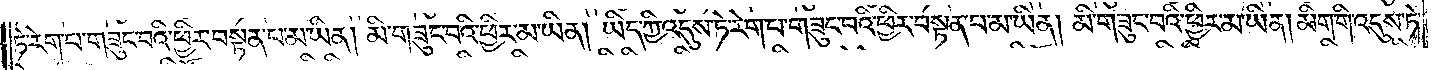ཏེ་རེག་པ་གཟུང་བའི་ཕྱིར་བསྟན་པ་མ་ཡིན། མི་གཟུང་བའི་ཕྱིར་མ་ཡིན། ཡིད་ཀྱི་འདུས་ཏེ་རེག་པ་གཟུང་བའི་ཕྱིར་བསྟན་པ་མ་ཡིན། མི་གཟུང་བའི་ཕྱིར་མ་ཡིན། མིག་གི་འདུས་ཏེ་
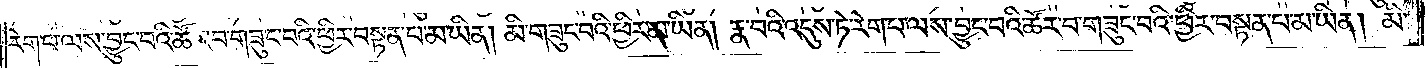རེག་པ་ལས་བྱུང་བའི་ཚོར་བ་གཟུང་བའི་ཕྱིར་བསྟན་པ་མ་ཡིན། མི་གཟུང་བའི་ཕྱིར་མ་ཡིན། རྣ་བའི་འདུས་ཏེ་རེག་པ་ལས་བྱུང་བའི་ཚོར་བ་གཟུང་བའི་ཕྱིར་བསྟན་པ་མ་ཡིན། མི་
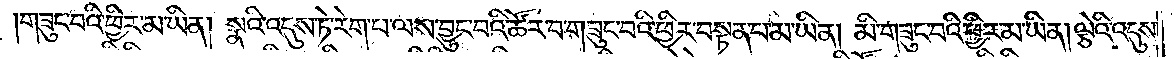གཟུང་བའི་ཕྱིར་མ་ཡིན། སྣའི་འདུས་ཏེ་རེག་པ་ལས་བྱུང་བའི་ཚོར་བ་གཟུང་བའི་ཕྱིར་བསྟན་པ་མ་ཡིན། མི་གཟུང་བའི་ཕྱིར་མ་ཡིན། ལྕེའི་འདུས་
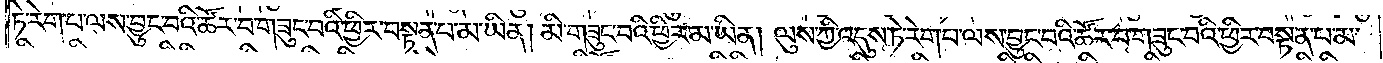ཏེ་རེག་པ་ལས་བྱུང་བའི་ཚོར་བ་གཟུང་བའི་ཕྱིར་བསྟན་པ་མ་ཡིན། མི་གཟུང་བའི་ཕྱིར་མ་ཡིན། ལུས་ཀྱི་འདུས་ཏེ་རེག་པ་ལས་བྱུང་བའི་ཚོར་བ་གཟུང་བའི་ཕྱིར་བསྟན་པ་མ་
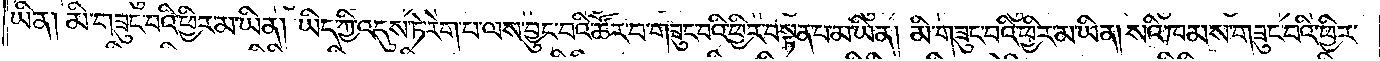ཡིན། མི་གཟུང་བའི་ཕྱིར་མ་ཡིན། ཡིད་ཀྱི་འདུས་ཏེ་རེག་པ་ལས་བྱུང་བའི་ཚོར་བ་གཟུང་བའི་ཕྱིར་བསྟན་པ་མ་ཡིན། མི་གཟུང་བའི་ཕྱིར་མ་ཡིན། སའི་ཁམས་གཟུང་བའི་ཕྱིར་
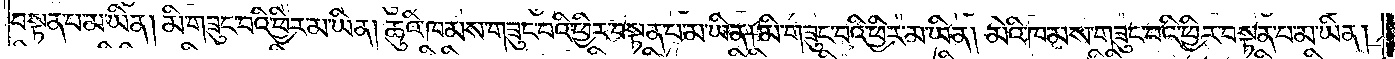བསྟན་པ་མ་ཡིན། མི་གཟུང་བའི་ཕྱིར་མ་ཡིན། ཆུའི་ཁམས་གཟུང་བའི་ཕྱིར་བསྟན་པ་མ་ཡིན། མི་གཟུང་བའི་ཕྱིར་མ་ཡིན། མེའི་ཁམས་གཟུང་བའི་ཕྱིར་བསྟན་པ་མ་ཡིན།
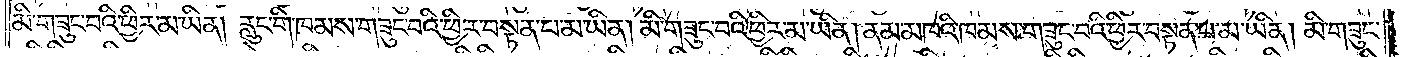མི་གཟུང་བའི་ཕྱིར་མ་ཡིན། རླུང་གི་ཁམས་གཟུང་བའི་ཕྱིར་བསྟན་པ་མ་ཡིན། མི་གཟུང་བའི་ཕྱིར་མ་ཡིན། ནམ་མཁའི་ཁམས་གཟུང་བའི་ཕྱིར་བསྟན་པ་མ་ཡིན། མི་གཟུང་
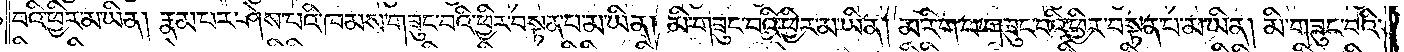བའི་ཕྱིར་མ་ཡིན། རྣམ་པར་ཤེས་པའི་ཁམས་གཟུང་བའི་ཕྱིར་བསྟན་པ་མ་ཡིན། མི་གཟུང་བའི་ཕྱིར་མ་ཡིན། མ་རིག་པ་གཟུང་བའི་ཕྱིར་བསྟན་པ་མ་ཡིན། མི་གཟུང་བའི་
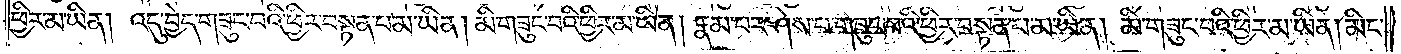ཕྱིར་མ་ཡིན། འདུ་བྱེད་གཟུང་བའི་ཕྱིར་བསྟན་པ་མ་ཡིན། མི་གཟུང་བའི་ཕྱིར་མ་ཡིན། རྣམ་པར་ཤེས་པ་གཟུང་བའི་ཕྱིར་བསྟན་པ་མ་ཡིན། མི་གཟུང་བའི་ཕྱིར་མ་ཡིན། མིང་
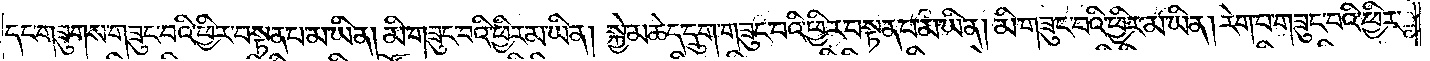དང་གཟུགས་གཟུང་བའི་ཕྱིར་བསྟན་པ་མ་ཡིན། མི་གཟུང་བའི་ཕྱིར་མ་ཡིན། སྐྱེ་མཆེད་དྲུག་གཟུང་བའི་ཕྱིར་བསྟན་པ་མ་ཡིན། མི་གཟུང་བའི་ཕྱིར་མ་ཡིན། རེག་པ་གཟུང་བའི་ཕྱིར་
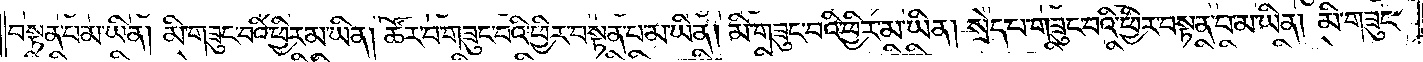བསྟན་པ་མ་ཡིན། མི་གཟུང་བའི་ཕྱིར་མ་ཡིན། ཚོར་བ་གཟུང་བའི་ཕྱིར་བསྟན་པ་མ་ཡིན། མི་གཟུང་བའི་ཕྱིར་མ་ཡིན། སྲེད་པ་གཟུང་བའི་ཕྱིར་བསྟན་པ་མ་ཡིན། མི་གཟུང་
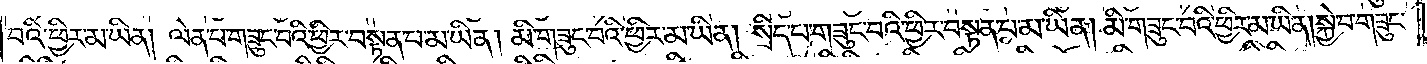བའི་ཕྱིར་མ་ཡིན། ལེན་པ་གཟུང་བའི་ཕྱིར་བསྟན་པ་མ་ཡིན། མི་གཟུང་བའི་ཕྱིར་མ་ཡིན། སྲིད་པ་གཟུང་བའི་ཕྱིར་བསྟན་པ་མ་ཡིན། མི་གཟུང་བའི་ཕྱིར་མ་ཡིན། སྐྱེ་བ་གཟུང་
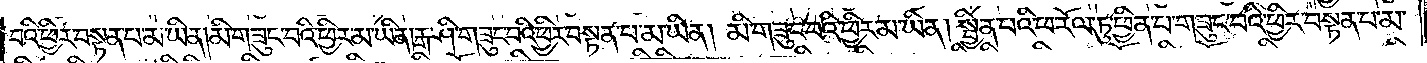བའི་ཕྱིར་བསྟན་པ་མ་ཡིན། མི་གཟུང་བའི་ཕྱིར་མ་ཡིན། རྒ་ཤི་གཟུང་བའི་ཕྱིར་བསྟན་པ་མ་ཡིན། མི་གཟུང་བའི་ཕྱིར་མ་ཡིན། སྦྱིན་པའི་ཕ་རོལ་ཏུ་ཕྱིན་པ་གཟུང་བའི་ཕྱིར་བསྟན་པ་མ་
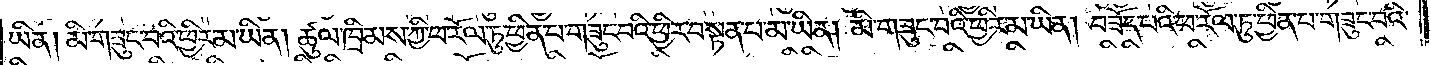ཡིན། མི་གཟུང་བའི་ཕྱིར་མ་ཡིན། ཚུལ་ཁྲིམས་ཀྱི་ཕ་རོལ་ཏུ་ཕྱིན་པ་གཟུང་བའི་ཕྱིར་བསྟན་པ་མ་ཡིན། མི་གཟུང་བའི་ཕྱིར་མ་ཡིན། བཟོད་པའི་ཕ་རོལ་ཏུ་ཕྱིན་པ་གཟུང་བའི་
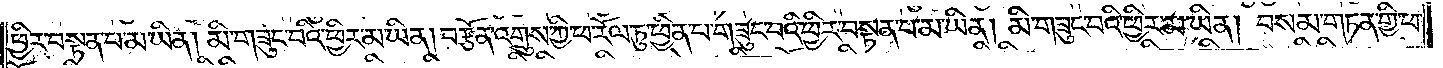ཕྱིར་བསྟན་པ་མ་ཡིན། མི་གཟུང་བའི་ཕྱིར་མ་ཡིན། བརྩོན་འགྲུས་ཀྱི་ཕ་རོལ་ཏུ་ཕྱིན་པ་གཟུང་བའི་ཕྱིར་བསྟན་པ་མ་ཡིན། མི་གཟུང་བའི་ཕྱིར་མ་ཡིན། བསམ་གཏན་གྱི་ཕ་
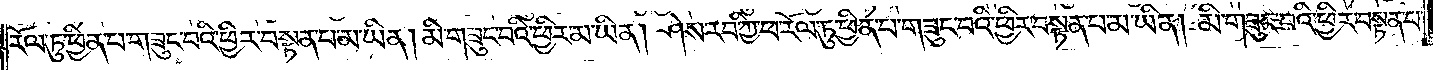རོལ་ཏུ་ཕྱིན་པ་གཟུང་བའི་ཕྱིར་བསྟན་པ་མ་ཡིན། མི་གཟུང་བའི་ཕྱིར་མ་ཡིན། ཤེས་རབ་ཀྱི་ཕ་རོལ་ཏུ་ཕྱིན་པ་གཟུང་བའི་ཕྱིར་བསྟན་པ་མ་ཡིན། མི་གཟུང་བའི་ཕྱིར་བསྟན་པ་
